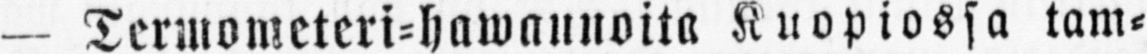— Termometeri-hawannoita Kuopiossa tam-
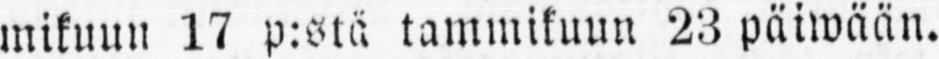mikuun 17 p:slä tammikuun 23 päiwään.
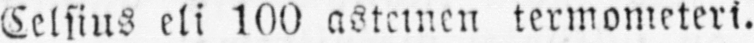(celsius eli 100 asteinen termometeri.
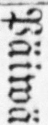Päiwä
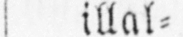K:lo 9
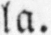illal-
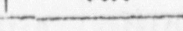la.
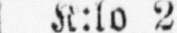K:lo 2
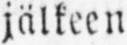jälkeen
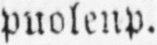puolenp.
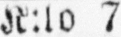K:lo 7
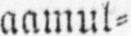aamul-
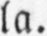la.
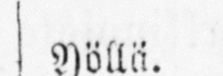Yöllä.
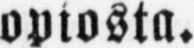Kuopiosta.
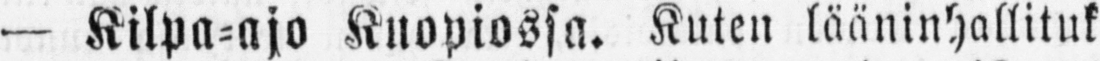— Kilpa-ajo Kuopiossa. Kuten lääninhallituk-
